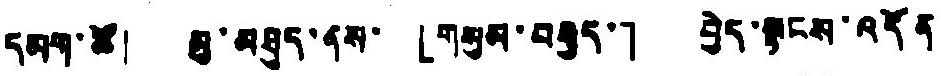དམག་ཚོ། མུ་མཐུད་ནས་「གསུམ་བརྒྱད་」བྱེད་སྟངས་འདོན
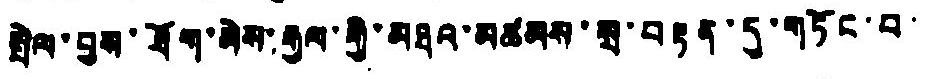སྤེལ་བྱས་ཐོག་མེས་རྒྱལ་གྱི་མཐའ་མཚམས་སྲ་བརྟན་དུ་གཏོང་བ་
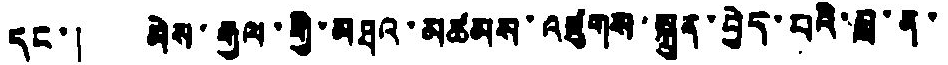དང་། མེས་རྒྱལ་གྱི་མཐའ་མཚམས་འཛུགས་སྐྲུན་བྱེད་པའི་བླ་ན་
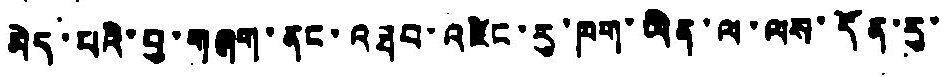མེད་པའི་བྱ་གཞག་ནང་འཐབ་འཛིང་རུ་ཁག་ཡིན་ལ་ལས་དོན་རུ་
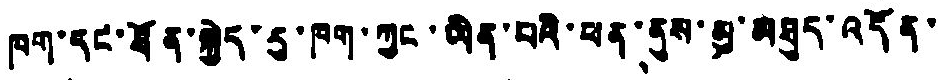ཁག་དང་ཐོན་སྐྱེད་རུ་ཁག་ཀྱང་ཡིན་པའི་ཕན་ནུས་མུ་མཐུད་འདོན་
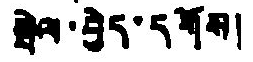སྤེལ་བྱེད་དགོས།
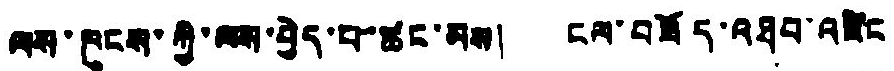ལས་ཁུངས་ཀྱི་ཆས་བྱེད་པ་ཚང་མས། ངལ་བཟོད་འཐབ་འཛིང
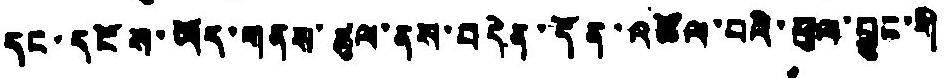དང་དངོས་ཡོད་གནས་ཚུལ་ནས་བདེན་དོན་འཚོལ་བའི་ཕུལ་བྱུང་གི
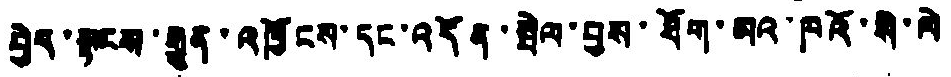བྱེད་སྟངས་རྒྱུན་འཁྱོངས་དང་འདོན་སྦེལ་བྱས་ཐོག་མའ་ཁའོ་སི་ལེ
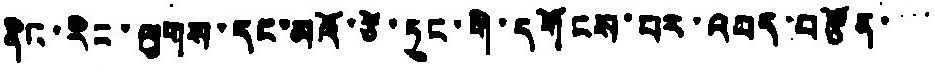ནིང་རིང་ལུགས་དང་མའོ་ཙེ་ཏུང་གི་དགོངས་པར་འབད་བརྩོན་་་་
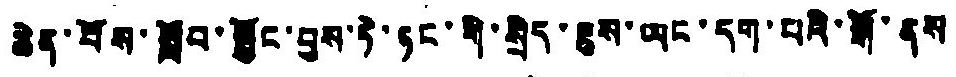ཆེན་པོས་སློབ་སྦྱོང་བྱས་ཏེ་ཏང་གི་སྲིད་ཇུས་ཡང་དག་པའི་རྒོ་ནས
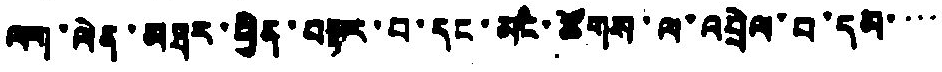ལག་ལེན་མཐར་ཕྱིན་བལྟར་བ་དང་མང་ཚོགས་ལ་འབྲེལ་བ་དམ་་་་
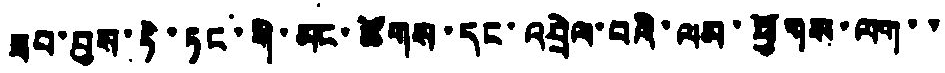ཟབ་བྱས་ཏེ་ཏང་གི་མང་ཚོགས་དང་འབྲེལ་བའི་ལམ་ཕྱོགས་ལག་་
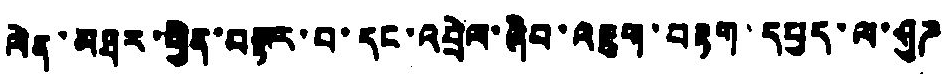ལེན་མཐར་ཕྱིན་བལྟར་བ་དང་འབྲེལ་ཞིབ་འཇུག་བརྟག་དཔྱད་ལ་ཤུཌ
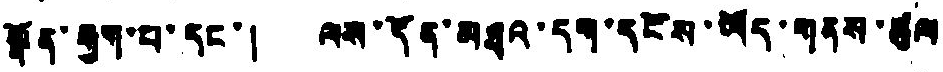སྣོན་རྒྱག་པ་དང་། ལས་དོན་མཐའ་དག་དངོས་ཡོད་གནས་ཚུལ
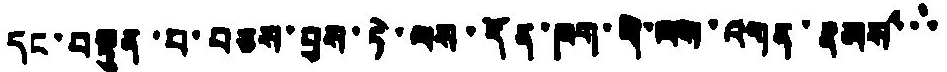དང་བསྟུན་པ་བཅས་བྱས་ཏེ་ལས་དོན་ཁག་གི་ལས་འགན་རྣམས་་་
